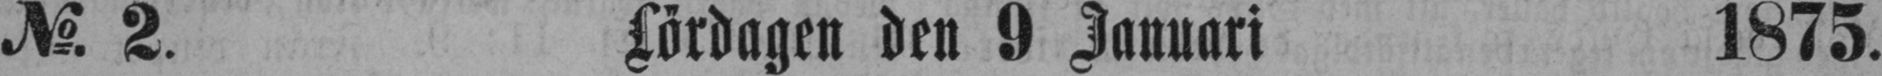N:o 2. Lördagen den 9 Januari 1875.
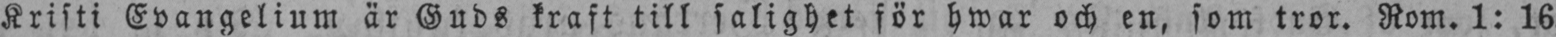Kristi Evangelium är Guds kraft till salighet för hwar och en, som tror. Rom. 1: 16.
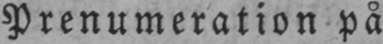Prenumeration på
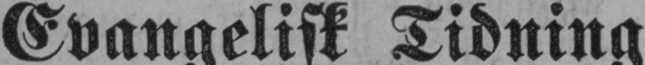Evangelisk Tidning
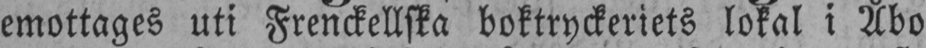emottages uti Frenckellska boktryckeriets lokal i Åbo
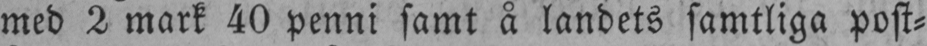med 2 mark 40 penni samt å landets samtliga post-
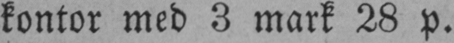kontor med 3 mark 28 p.
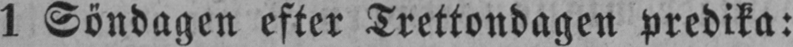1 Söndagen efter Trettondagen predika:
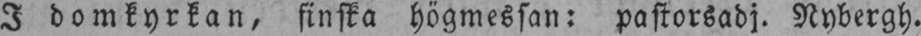I domkyrkan, finska högmessan: pastorsadj. Nybergh.
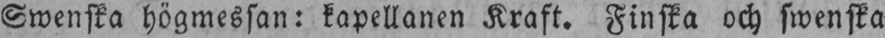Swenska högmessan: kapellanen Kraft. Finska och swenska
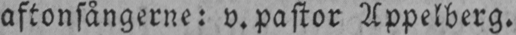aftonsångerne: v. pastor Appelberg.
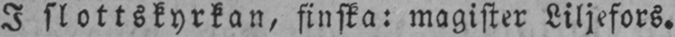I slottskyrkan, finska: magister Liljefors.
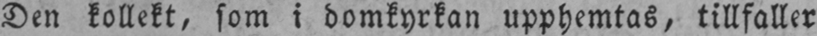Den kollekt, som i domkyrkan upphemtas, tillfaller
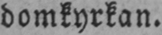domkyrkan.
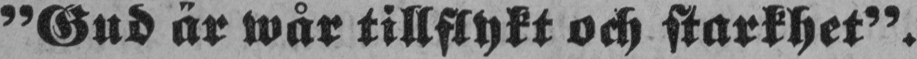"Gud är wår tillflykt och starkhet".
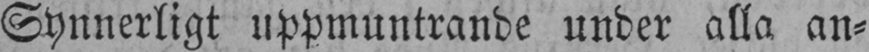Synnerligt uppmuntrande under alla an-
